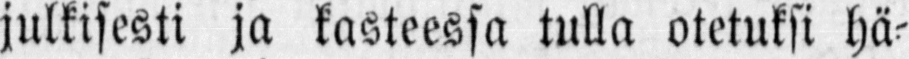julkisesti ja kasteessa tulla otetuksi hä-
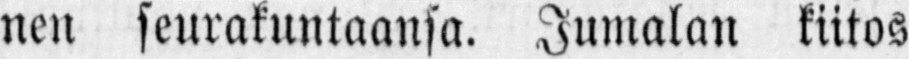nen seurakuntaansa. Jumalan kiitos
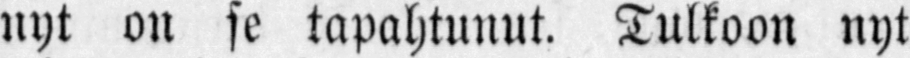nyt on se tapahtunut. Tulkoon nyt
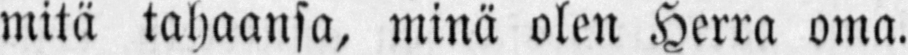mitä tallaansa, minä olen Herra oma.
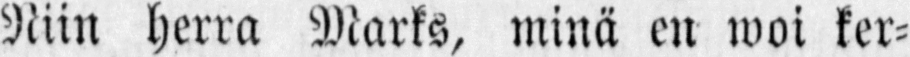Niin herra Marks, minä en woi ker-
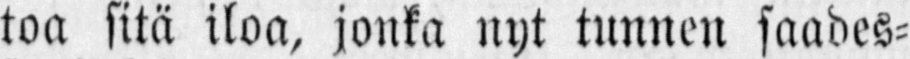toa sitä iloa, jonka nyt tunnen saades-
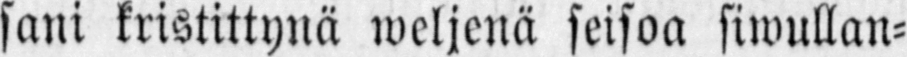sani kristittynä weljenä seisoa siwullan-
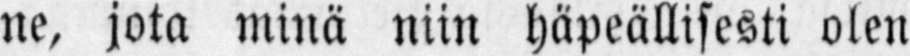ne, jota minä niin häpeällisesti olen
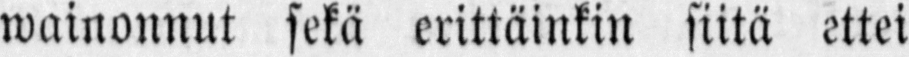wainonnut sekä erittäinkin siitä ettei
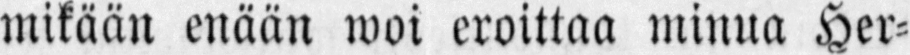mikään enään woi eroittaa minua Her-
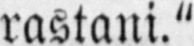rastani."
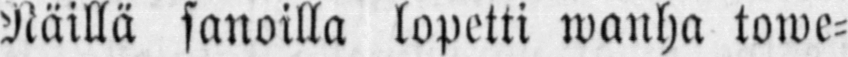Näillä sanoilla lopetti wanha towe-
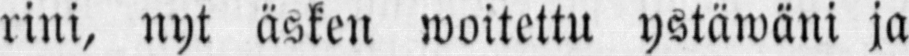rini, nyt äsken woitettu ystäwäni ja
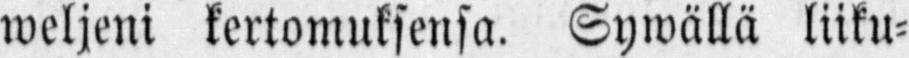weljeni kertomuksensa. Sywällä liiku-
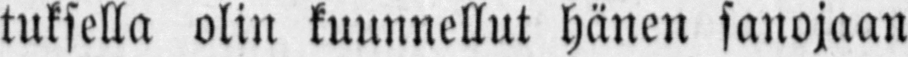tuksella olin kuunnellut hänen sanojaan
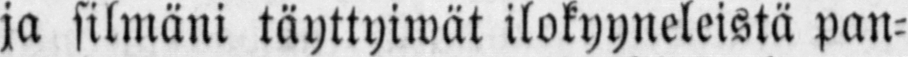ja silmäni täyttyiwät ilokyyneleistä pan-
